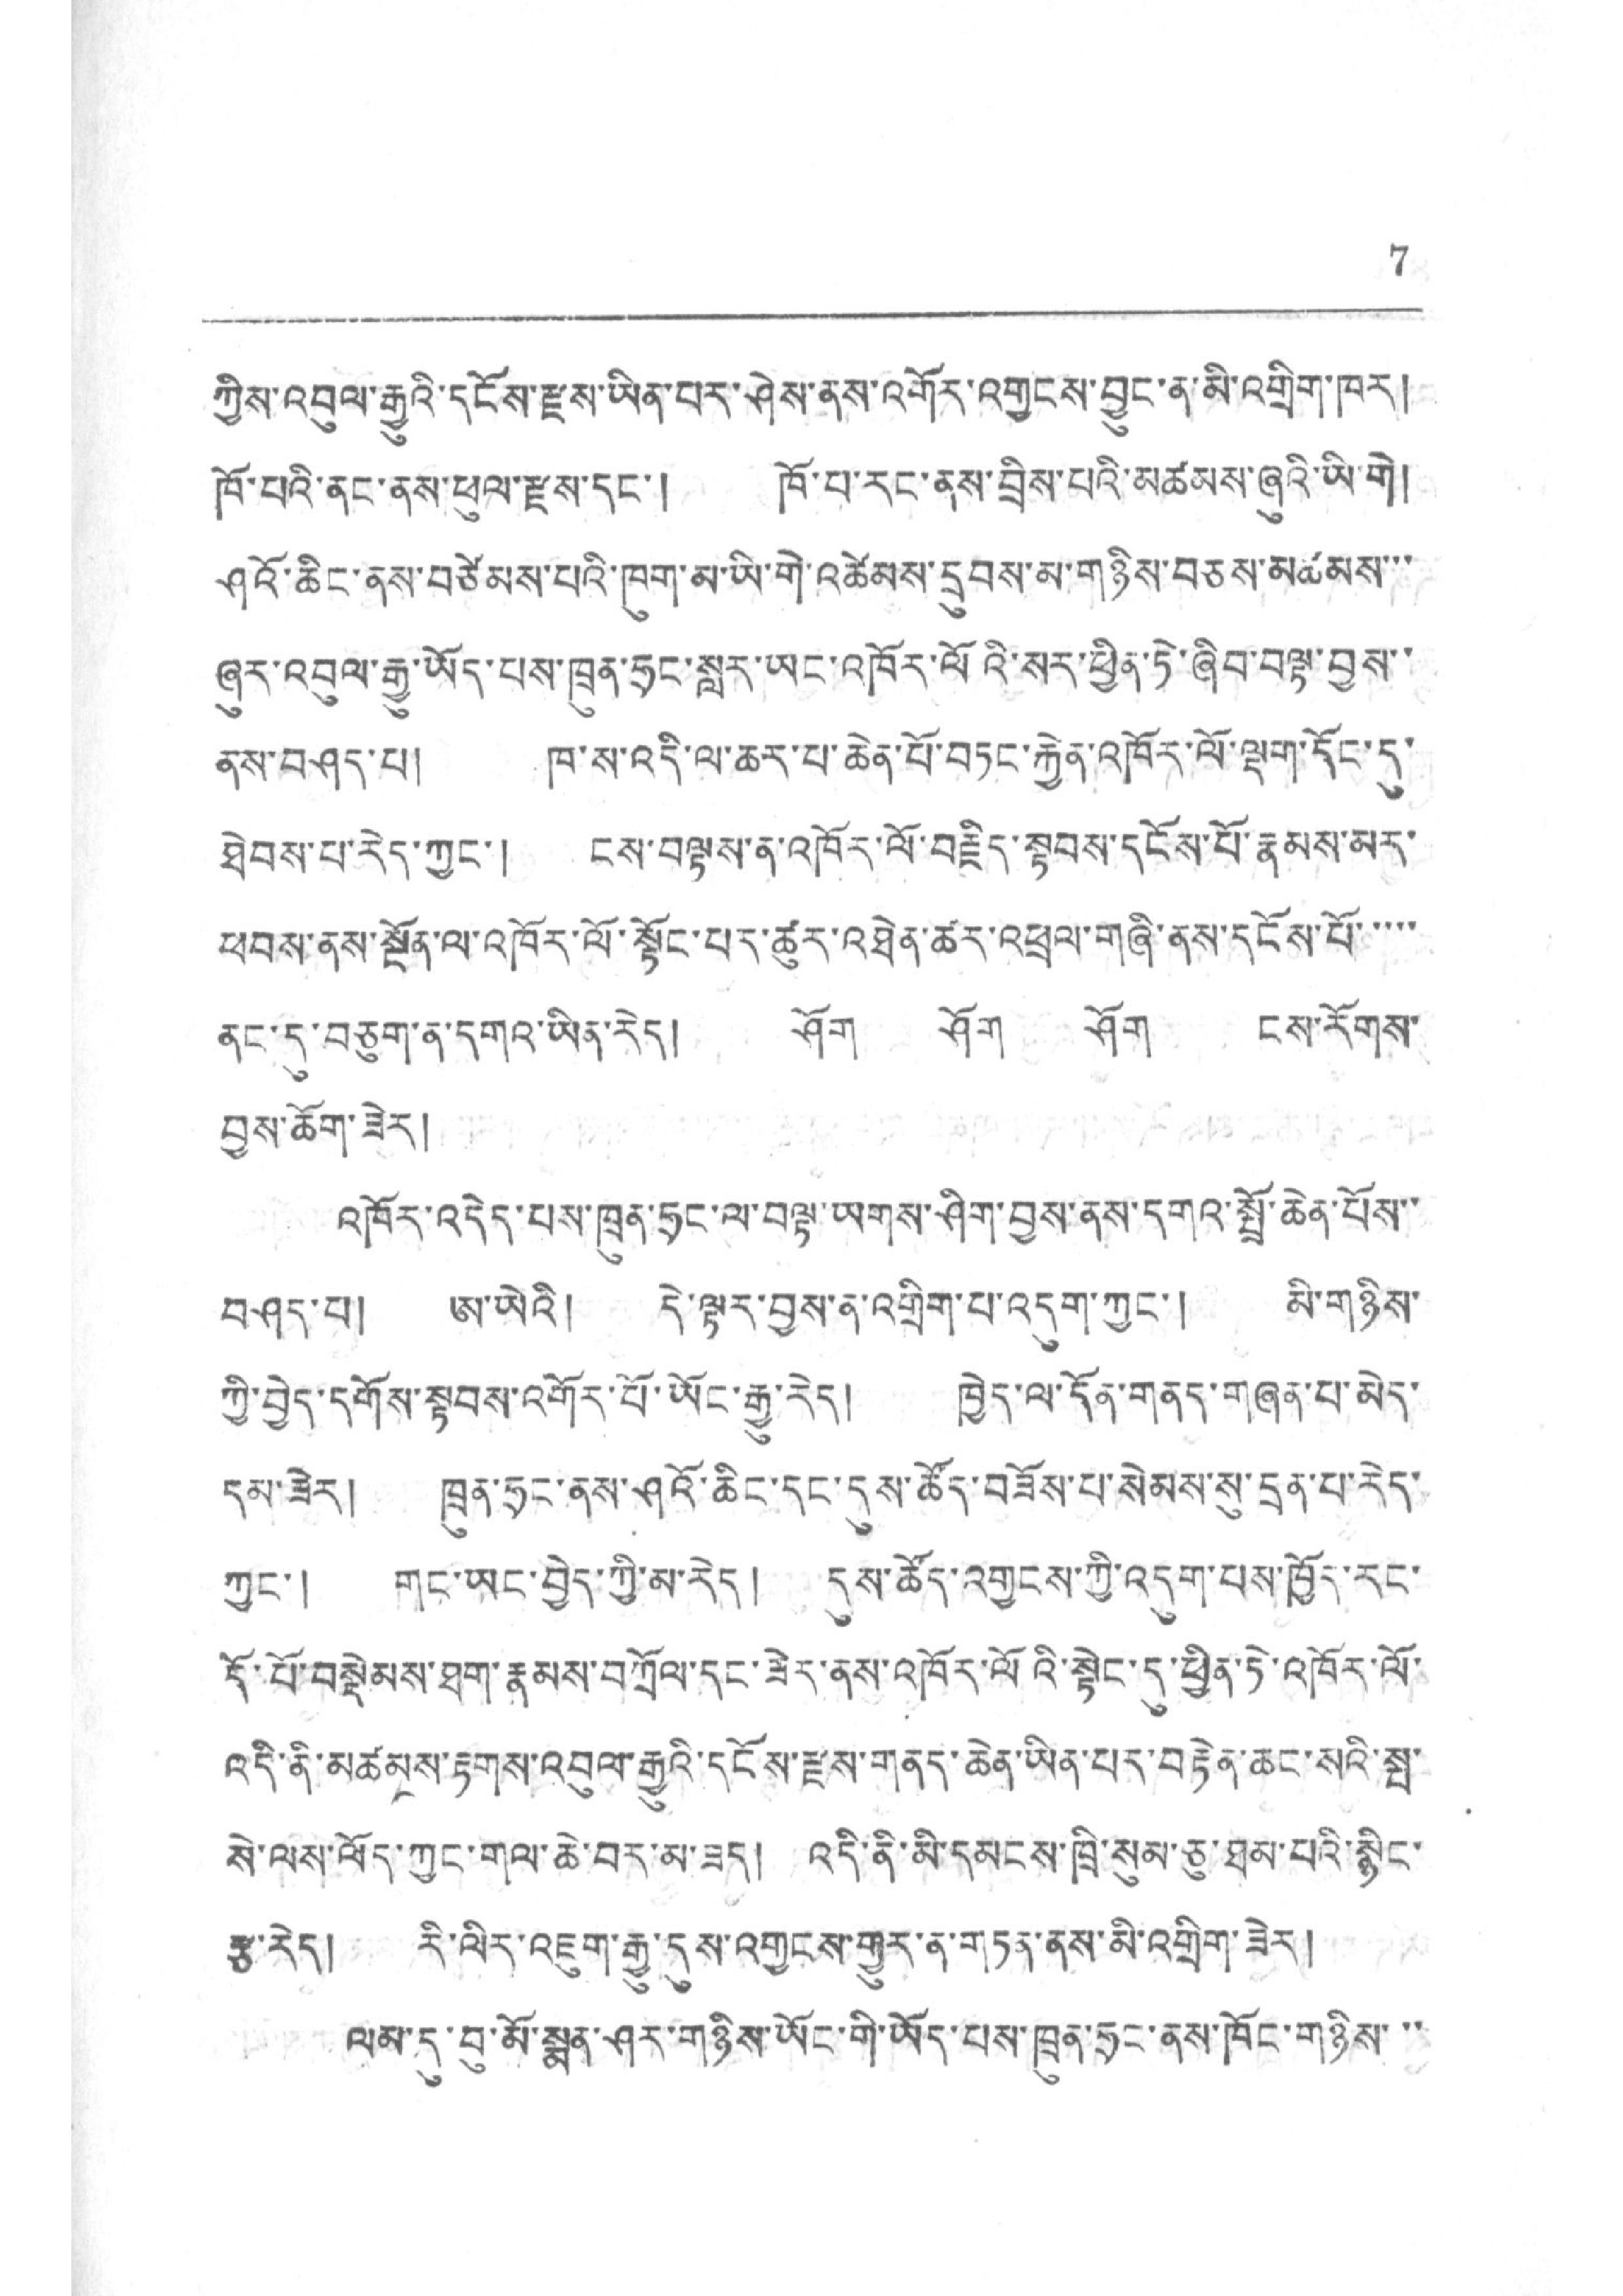7
ཀྱིས་འབུལ་རྒྱུའི་དངོས་རྫས་ཡིན་པར་ཤེས་ནས་འགོར་འགྱངས་བྱུང་ན་མི་འགྲིག་ཁར།
ཁོ་པའི་ནང་ནས་ཕུལ་རྫས་དང་། ཁོ་པ་རང་ནས་བྲིས་པའི་མཚམས་ཞུའི་ཡི་གེ།
ཤའོ་ཆིང་ནས་བཙེམས་པའི་ཁག་མ་ཡི་གེ་འཚེམས་དྲབས་མ་གཉིས་བཅས་མཚམས་་་
ཞར་འབུལ་རྒྱུ་ཡོད་པས་ཁྲུན་ཧྲང་སླར་ཡང་འཁོར་ལོའི་སར་ཕྱིན་ཏེ་ཞིབ་བལྟ་བྱས་་
ནས་བཤད་པ། ཁ་ས་འདི་ལ་ཆར་པ་ཆེན་པོ་བཏང་རྐྱེན་འཁོར་ལོ་ལྡག་དོང་དུ་
ཐེབས་པ་རེད་ཀྱང་། ངས་བལྟས་ན་འཁོར་ལོ་བརྗིད་སྟབས་དངོས་པོ་རྣམས་མར་
ཕབས་ནས་སྔོན་ལ་འཁོར་ལོ་སྟོང་པར་ཚུར་འཐེན་ཚར་འཕྲལ་གཞི་ནས་དངོས་པོ་་་་་
ནང་དུ་བཅུག་ན་དགའ་ཡིན་རེད། ཤོག ཤོག ཤོག ངས་རོགས་
བྱས་ཆོག་ཟེར།
འཁོར་འདེད་པས་ཁྲུན་ཧྲང་ལ་བལྟ་ཡགས་ཤིག་བྱས་ནས་དགའ་སྤྲོ་ཆེན་པོས་་
བཤད་པ། ཨ་ཡེའི། དེ་ལྟར་བྱས་ན་འགྲིག་པ་འདུག་ཀྱང་། མི་གཉིས་
ཀྱི་བྱེད་དགོས་སྟབས་འགོར་པོ་ཡོང་རྒྱ་རེད། ཁྱེད་ལ་དོན་གནད་གཞན་པ་མེད་
དམ་ཟེར། ཁྲུན་ཧྲང་ནས་ཤའོ་ཆིང་དང་དུས་ཚོད་བཟོས་པ་སེམས་སུ་དྲན་པ་རེད་
ཀྱང་། གང་ཡང་བྱེད་ཀྱི་མ་རེད། དུས་ཚོད་འགྱངས་ཀྱི་འདུག་པས་ཁྱོར་རང་
དོ་པོ་བསྡེམས་ཐག་རྣམས་བཀྲོལ་དང་ཟེར་ནས་འཁོར་ལོའི་སྟེང་དུ་ཕྱིན་ཏེ་འཁོར་ལོ་
འདི་ནི་མཚམས་རྟགས་འབུལ་རྒྱུའི་དངོས་རྫས་གནད་ཆེན་ཡིན་པར་བརྟེན་ཆང་སའི་སྤ་
སེ་ལས་ལོད་ཀྱང་གལ་ཆེ་བར་མ་ཟད། འདི་ནི་མི་དམངས་ཁྲི་སུམ་ཅུ་ཐམ་པའི་སྙིང་
རྩ་རད། རི་ལིར་འཇུག་རྒྱུ་དུས་འགྱངས་གྱུར་ན་གཏན་ནས་མི་འགྲིག་ཟེར།
ལམ་དུ་བུ་མོ་སྨན་ཤར་གཉིས་ཡོང་གི་ཡོད་པས་ཁྲུན་ཧྲང་ནས་ཁོང་གཉིས་་་
